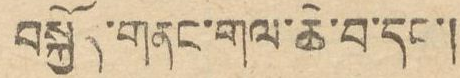བསྐྱོད་གནང་གལ་ཆེ་བ་དང་།
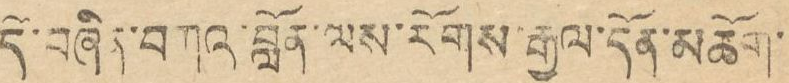དེ་བཞིན་བཀའ་བློན་ལས་རོགས་རྒྱལ་དོན་མཆོག་
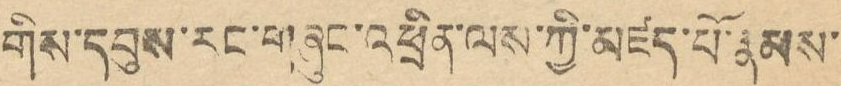གིས་དབུས་རང་གཞུང་འཕྲིན་ལས་ཀྱི་མཛད་པོ་རྣམས་
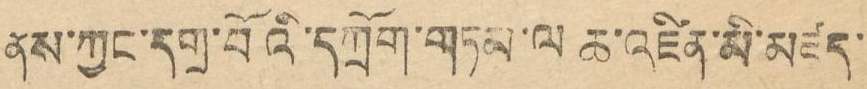ནས་ཀྱང་དགྲ་བོའི་དཀྲོག་གཏམ་ལ ཆ་འཛིན་མི་མཛད་
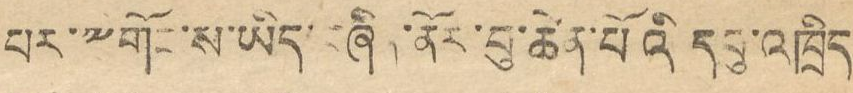པར་༸གོང་ས་ཡིད་བཞིན་ནོར་བུ་ཆེན་པོའི དབུ་འཁྲིད
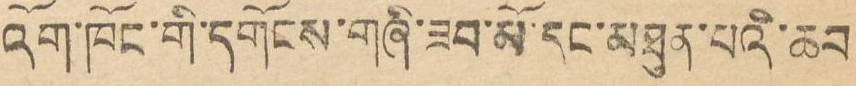འོག་ཁོང་གི་དགོངས་གཞི་ཟབ་མོ་དང་མཐུན་པའི་ཆབ
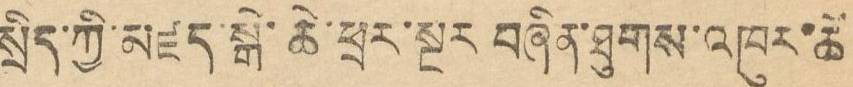སྲིད་ཀྱི་མཛད་སྒེ་ཆེ་ཕྲང་སྔར བཞིན་ཐུགས་འཁུར་ཆོ
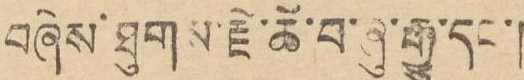བཞེས་ཐུགས་རྗེ་ཚེ་བ་ཞུ་རྒྱུ་དང་།
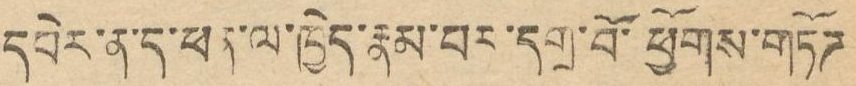དཔེར་ན་ད་ཕན་ལ་ཁྱེད་རྣམས་བར་དགྲ་བོ་ཕྱོགས་གཏོཊ
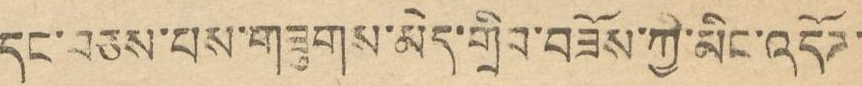དང་བཅས་པས་གཟུགས་མེད་གྲིབ་བཟོས་ཀྱི་མིང་འདོཊ་
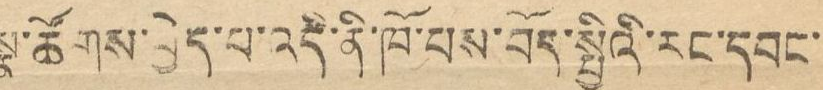སྣ་ཚོགས་བྱེད་པ་འདི་ནི་ཁོ་པས་བོད་སྤྱིའི་རང་དབང་
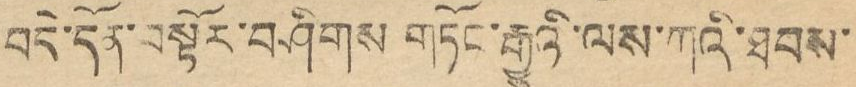བདེ་དོན་བསྟོར་བཤིགས གཏོང་རྒྱུའི་ལས་ཀའི་ཐབས་
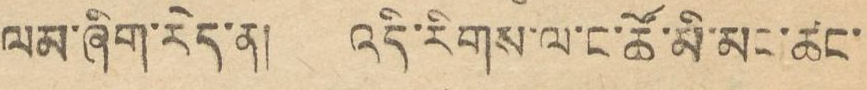ལམ་ཞིག་རེད་ན། འདི་རིགས་ལ་ང་ཚོ་མི་མང་ཚང་
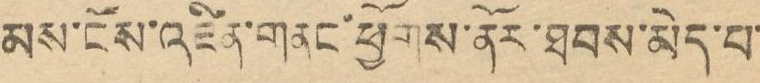མས་ངོས་འཛིན་གནང་ཕྱོགས་ནོར་ཐབས་མེད་པ་
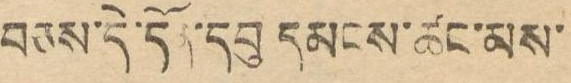བཅས་དེ་དོན་དབུ དམངས་ཚང་མས་
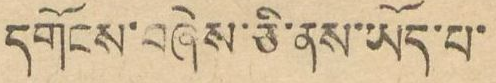དགོངས་བཞེས་ཅི་ནས་ཡོད་པ་
